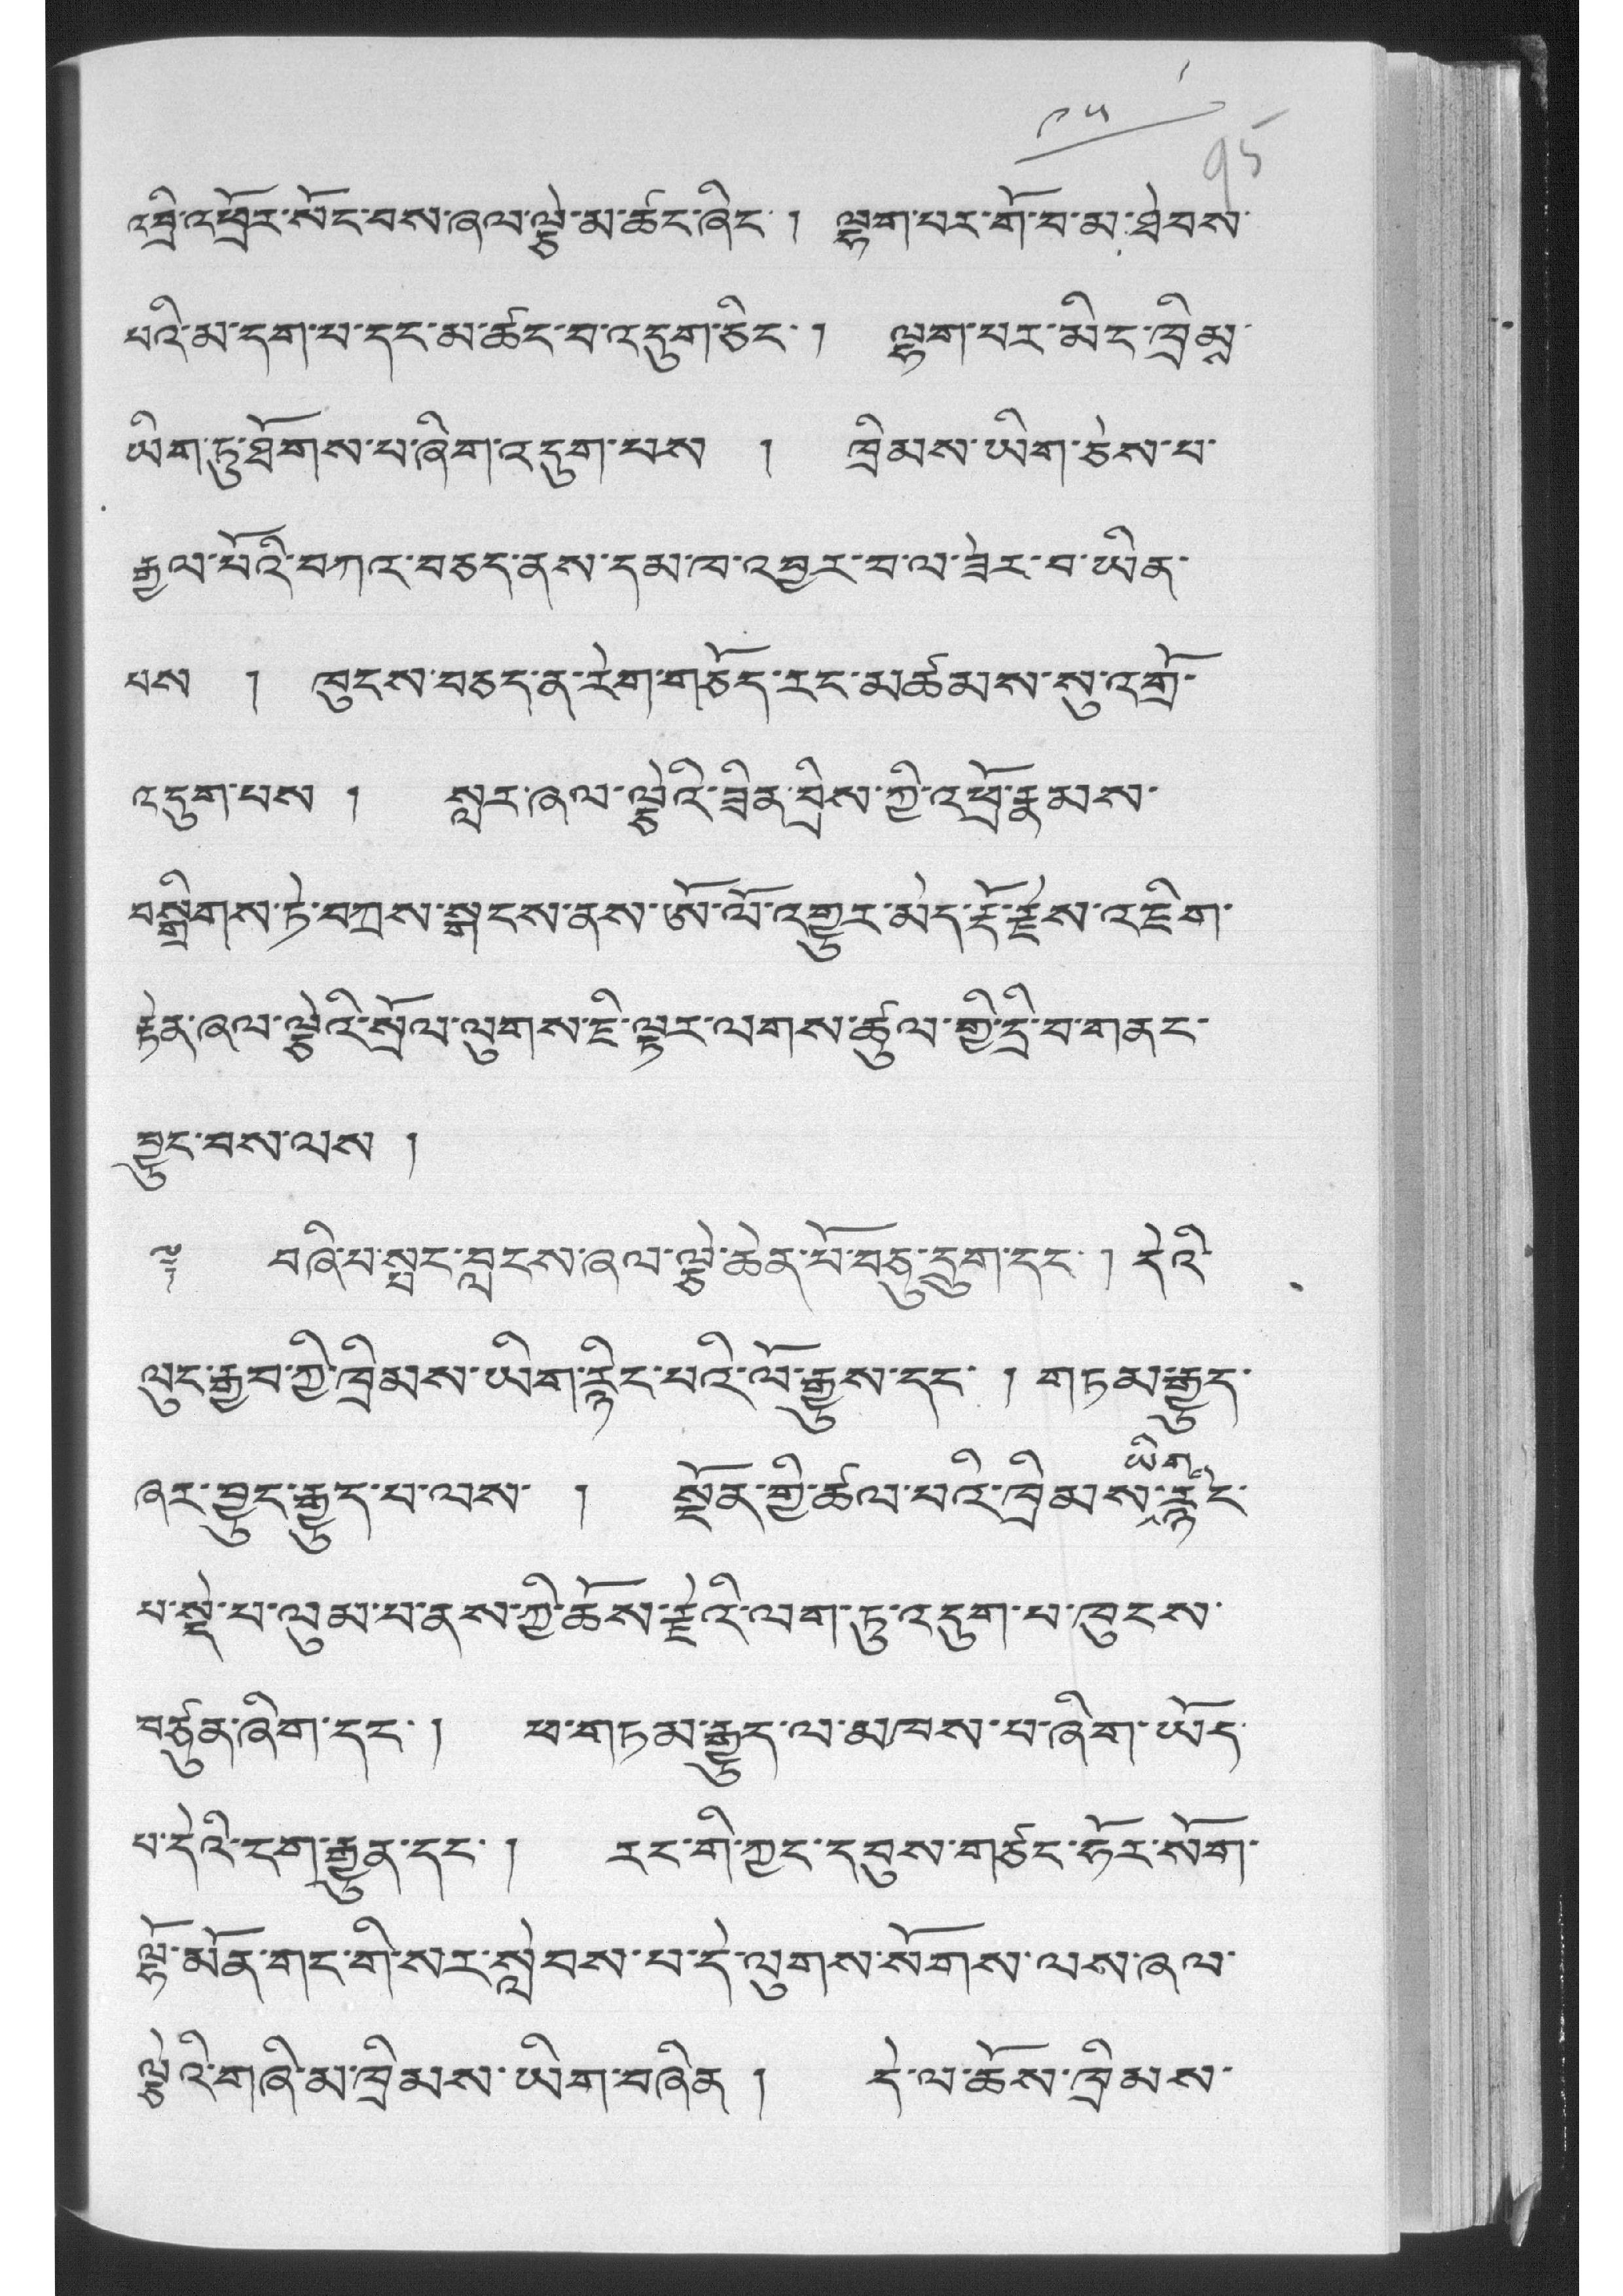༩༥
འབྲི་འཕྲོར་སོང་བས་ཞལ་ལྕེ་མ་ཚང་ཞིང་ ། ལྷག་པར་གོ་བ་མ་ཐེབས་
པའི་མ་དག་པ་དང་མ་ཚང་བ་འདུག་ཅིང་། ལྷག་པར་མིང་ཁྲིམས་
ཡིག་ཏུ་ཐོགས་པ་ཞིག་འདུག་པས ། ཁྲིམས་ཡིག་ཅེས་པ་
རྒྱལ་པོའི་བཀའ་བཅད་ནས་དམ་ཁ་འབྱར་བ་ལ་ཟེར་བ་ཡིན་
པས ། ཁུངས་བཅད་ན་རིག་གཅོད་རང་མཚམས་སུ་འགྲོ་
འདུག་པས ། སླར་ཞལ་ལྕེའི་ཟིན་བྲིས་ཀྱི་འཕྲོ་རྣམས་
བསྒྲིགས་ཏེ་བཀྲས་སྒངས་ནས་ཨོ་ལོ་འགྱུར་མེད་རྡོ་རྗེས་འཇིག་
རྟེན་ཞལ་ལྕེའི་སྲོལ་ལུགས་ཇི་ལྟར་ལགས་ཚུལ་གྱི་དྲི་བ་གནང་
བྱུང་བས་ལས །
༈ བཞི་པ་སྦང་བླངས་ཞལ་ལྕེ་ཆེན་པོ་བཅུ་དྲུག་དང་། དེའི་
ལུང་རྒྱབ་ཀྱི་ཁྲིམས་ཡག་རྙིང་པའི་ལོ་རྒྱུས་དང་། གཏམ་རྒྱུད་
ཞར་བྱུང་རྒྱུད་བ་ལས་ ། སྔོན་གྱི་ཚལ་བའ་ཁྲིམས་ཡིག་རྙིང་
པ་སྡེ་པ་ལུམ་པ་ནས་ཀྱི་ཆོས་རྫེའི་ལག་ཏུ་འདུག་པ་ཁུངས་
བཙུན་ཞིག་དང་། ཕ་གཏམ་རྒྱུད་ལ་མཁས་པ་ཞིག་ཡོད་
པ་དེའི་ངག་རྒྱུན་དང་། རང་གི་ཀྱང་དབུས་གཙང་ཧོར་སོག་
ལྷོ་མོན་གང་གི་སར་སླེབས་པ་དེ་ལུགས་སོགས་ལས་ཞལ་
ལྕེའི་གཞི་མ་ཁྲིམས་ཡིག་བཞིན ། དེ་ལ་ཆོས་ཁྲིམས་
